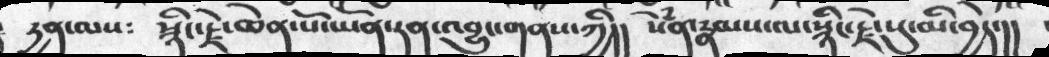དྱན་ལས༴  སྙིང་རྗེ་ཆེན་པོ་ཡོན་ཏན་འབྱུང་གནས་ཀྱི།། སེཾན་རྣམས་ལ་སྙིང་རྗེ་སུ་མི་བྱེད་།།
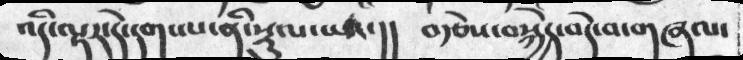འདི་ལྟར་དེ་དག་ལ་ནི་སྡུལ་སྤང་།།   བརྩེས་བསྐྱེད་བདེ་བ་གཞལ་
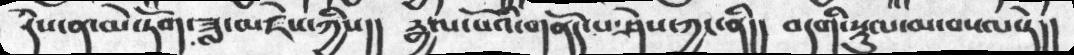དེས་ན་མེ་ཏོག་ཟླ་མཛེས་ཀྱིས།།  རྒྱལ་པོའི་གནོད་པ་ཤེས་ཀྱང་ནི།།   བདགི་སྡུལ་མ་བསལ་ཏེ།།
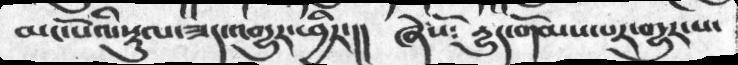མང་པོའི་སྡུལ་ཟད་འགྱུར་ཕྱིར་།།  ཞེསོ༴  དྱུད་གོམས་པར་གྱུར་པ་
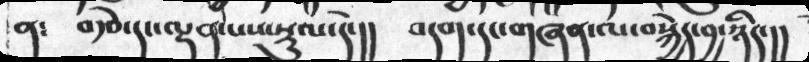ན༴   བརྩེ་དང་ལྡན་པས་སྡུལ་དེ་།།    བདག་དང་གཞན་ལ་བསྐྱེད་བྱ་ཉིད་།།
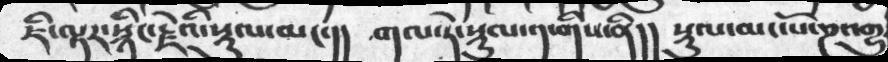ཇི་ལྟར་སྙིང་རྗེའི་སྡུལ་མང་།།   གལ་ཏེ་སྡུལ་༡་གིས་ནི།། སྡུལ་མང་པོ་ཎའགྱུ
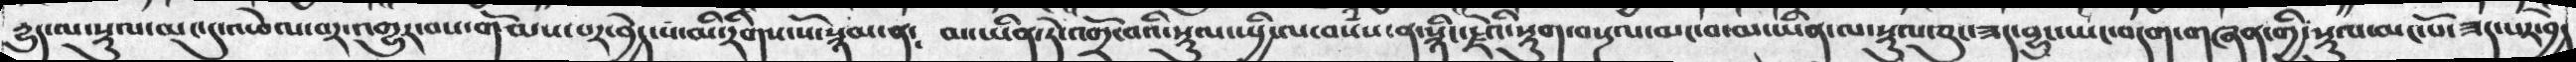དྱུད་ལ་སྡུལ་མང་དུ་འཕེལ་བར་འགྱུར་བས་གོམས་པར་བྱེད་པ་མི་རིགས་སོ་སྙམ་ན༴ མ་ཡིན་ཏེ་འགྲོ་བའི་སྡུལ་སྤྱི་ལ་བསཾས་ན་སྙིང་རྗེའི་སྡུག་བསྔལ་མང་བ་མ་ཡིན་ལ་སྡུལ་ཅུང་ཟད་བྱུང་ཡང་བདག་གཞན་ཡང་བདག་གཞན་གྱི་སྡུལ་མང་པོ་ཟད་པར་བྱེད
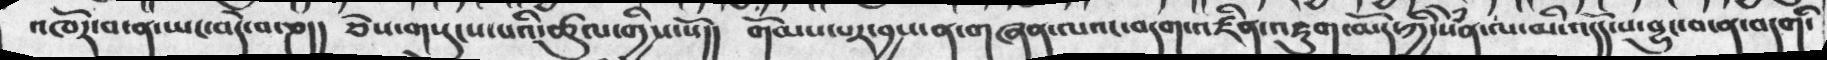འཁོར་བ་ན་ཡང་བདེ་བ་ཎ།།   ཅེས་གསུངས་པའི་ཚུལ་གྱིས་སོ།།  གོམས་པར་བྱས་ན་གཞན་ལའང་བདག་འཛིན་འཇུག་མོད་ཀྱི་སེཾན་ལ་མི་འདོད་པ་བྱུང་བ་ན་བདག་
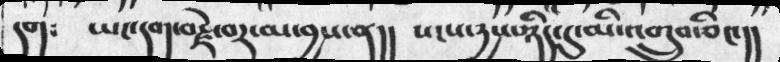དག༴    ཡང་དག་བརྗེ་བར་མ་བྱས་ན།།   སངས་དྱས་ཉིད་དུ་མི་འགྲུབ་ཅིང་།།
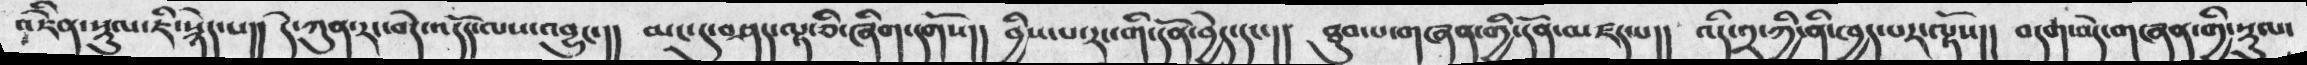འཇིེན་སྡུལ་ཇི་སྙེད་པ།། དེ་ཀུན་རང་བདེ་འདོད་ལས་འབྱུང་།། མང་དུ་བཤད་ལྟ་ཅི་ཞིག་དགོས།།  བྱིས་པ་རང་གི་དོན་བྱེད་དང་།།  ཐུབ་པ་གཞན་གྱི་དོན་མཛད་པ།།  འདི་༢་ཀྱི་ནི་ཁྱད་པར་ལྟོས།། བདག་བདེ་གཞན་གྱི་སྡུལ་
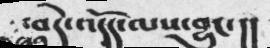བདེ་འདོད་ལས་བྱུང་།།
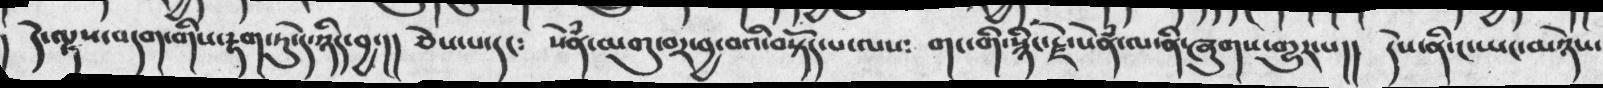དེ་ལྟས་བདག་གིས་རྟག་ཏུ་དེ་ཉིད་བྱ་།།  ཅེས་པ་དང༴   སེཾན་མགུ་བར་བྱ་བའི་བསྟོད་པ་ལས༴   གང་གི་སྙིང་རྗེ་སེཾན་ལ་ནི་ཞུགས་གྱུར་པ།། དེས་ནི་ང་ཡང་མཉེས་
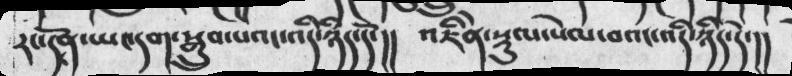རང་དོན་ཡང་དག་སྒྲུབ་པའང་འདི་ཉིད་དོ་།།   འཇིེན་སྡུལ་སེལ་བའང་འདི་ཉིད་དེ་།།
